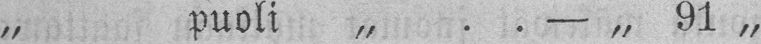„ puoli „ . . — „ 91 „
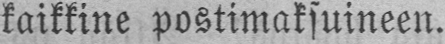kaikkine postimaksuineen.
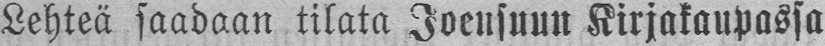Lehteä saadaan tilata Joensuun Kirjakaupassa
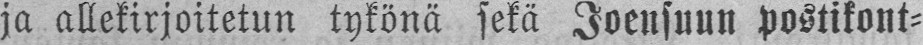ja allekirjoitetun tykönä sekä Joensuun postikont-
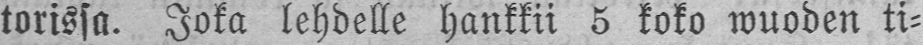torissa. Joka lehdelle hankkii 5 koko wuoden ti-
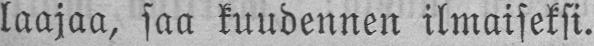laajaa, saa kuudennen ilmaiseksi.
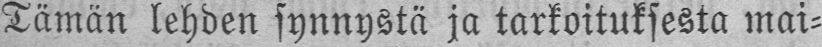Tämän lehden synnystä ja tarkoituksesta mai-
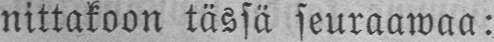nittakoon tässä seuraawaa:
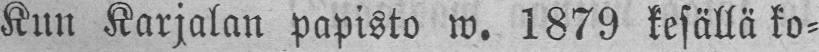Kun Karjalan papisto w. 1879 kesällä ko-
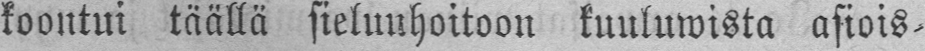koontui täällä sielunhoitoon kuuluwista asiois-
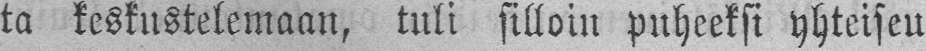ta keskustelemaan, tuli silloin puheeksi yhteiseu
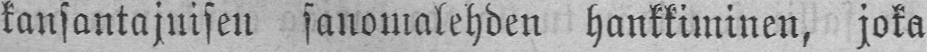kansantajuisen sanomalehden hankkiminen, joka
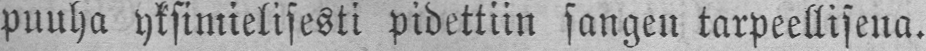puuha yksimielisesti pidettiin sangen tarpeellisena.
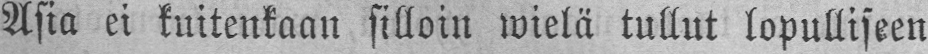Asia ei kuitenkaan silloin wielä tullut lopulliseen
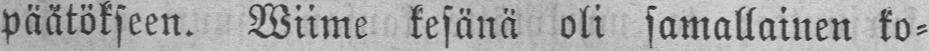päätökseen. Wiime kesänä oli samallainen ko-
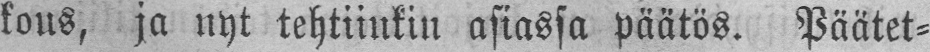kous, ja nyt tehtiinkin asiassa päätös. Päätet-
